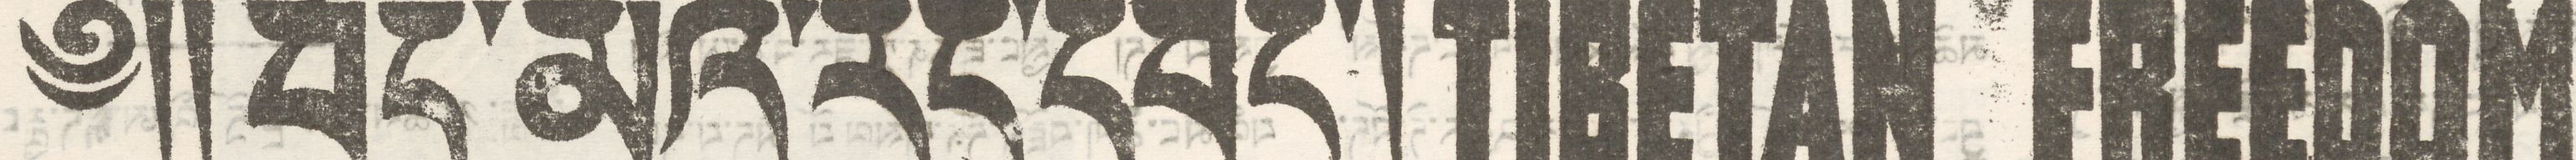༄།། བོད་མིའི་རང་དབང་། TIBETAN FREEDOM
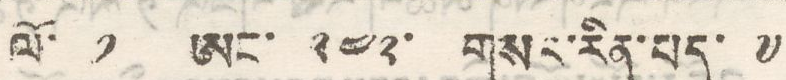ལོ་ ༡ ཨང་ ༢༤༢་ གསར་རིན་པད་ ༧
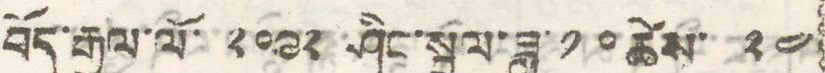བོད་རྒྱལ་ལོ་ ༢༠༩༢ ཤིང་སྦྲུག་ཟླ་ ༡༠ ཚེས་ ༢༤
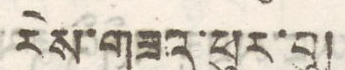རེས་གཟའ་ཕུར་བུ།
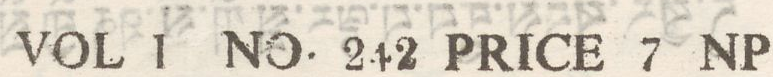VOL 1 NO 212 PRICE 7 NP.
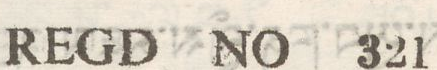REGD NO 321
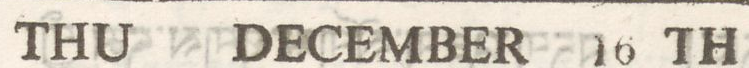THU DECEMBER 16 TH
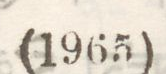(1965)
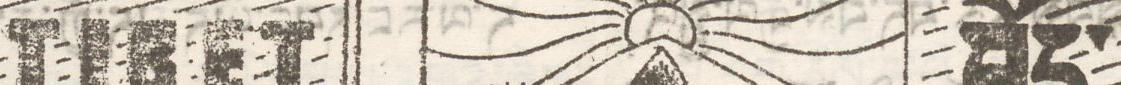TIBET བོད་
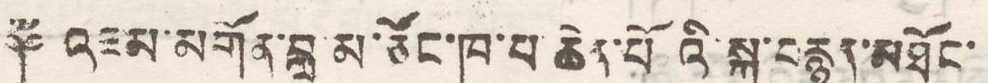༈ འཇམ་འགོན་བླ མ་ཙོང་ཁ་པ་ཆེན་པོའི་སྐུ་བརྙན་མཐོང་
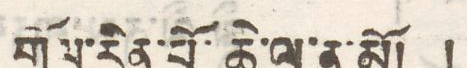གྲོལ་རིན་པོ་ཆེ་ལ་ན་མོ། །
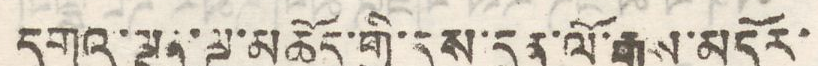དགའ་ལྡན་ལྔ་མཆོད་གྱི་དུས་དྲན་ལོ་རྒྱུས་མདོར་
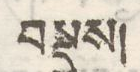བསྡུས།
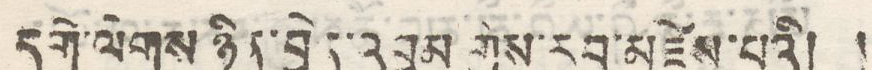དགེ་ལེགས ཉིན་བྱེད་འབུམ གྱིས་རབ་མཛེས་པའི། །
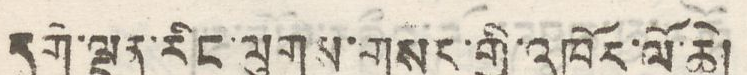དགེ་ལྡན་རིང་ལུགས་གསར་གྱི་འཁོར་ལོ་ཆེ།
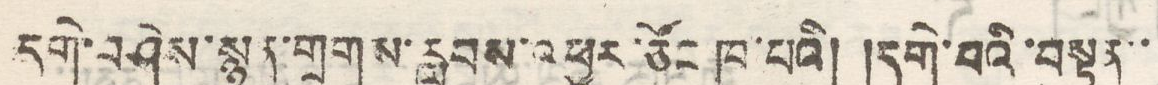དགེ་བཤེས་སྙན་གྲགས་རླབས་འཕྱུར་ཙོང ཁ་པའི། །དགེ་བའི་བསྟན་་
